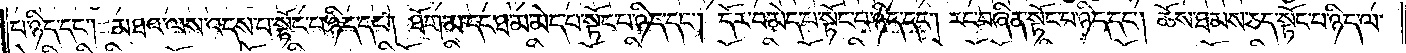པ་ཉིད་དང༌། མཐའ་ལས་འདས་པ་སྟོང་པ་ཉིད་དང༌། ཐོག་མ་དང་ཐ་མ་མེད་པ་སྟོང་པ་ཉིད་དང༌། དོར་བ་མེད་པ་སྟོང་པ་ཉིད་དང༌། རང་བཞིན་སྟོང་པ་ཉིད་དང༌། ཆོས་ཐམས་ཅད་སྟོང་པ་ཉིད་ལ་
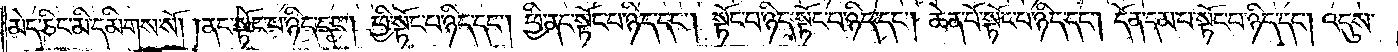མེད་ཅིང་མི་དམིགས་སོ། །ནང་སྟོང་པ་ཉིད་དང༌། ཕྱི་སྟོང་པ་ཉིད་དང༌། ཕྱི་ནང་སྟོང་པ་ཉིད་དང༌། སྟོང་པ་ཉིད་སྟོང་པ་ཉིད་དང༌། ཆེན་པོ་སྟོང་པ་ཉིད་དང༌། དོན་དམ་པ་སྟོང་པ་ཉིད་དང༌། འདུས་
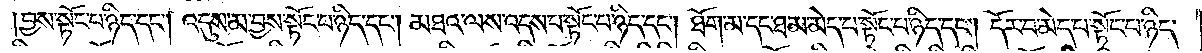བྱས་སྟོང་པ་ཉིད་དང༌། འདུས་མ་བྱས་སྟོང་པ་ཉིད་དང༌། མཐའ་ལས་འདས་པ་སྟོང་པ་ཉིད་དང༌། ཐོག་མ་དང་ཐ་མ་མེད་པ་སྟོང་པ་ཉིད་དང༌། དོར་བ་མེད་པ་སྟོང་པ་ཉིད་
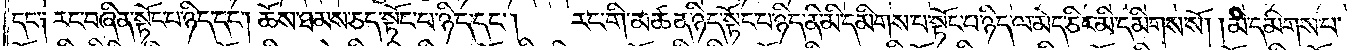དང༌། རང་བཞིན་སྟོང་པ་ཉིད་དང༌། ཆོས་ཐམས་ཅད་སྟོང་པ་ཉིད་དང༌། རང་གི་མཚན་ཉིད་སྟོང་པ་ཉིད་ནི་མི་དམིགས་པ་སྟོང་པ་ཉིད་ལ་མེད་ཅིང་མི་དམིགས་སོ། །མི་དམིགས་པ་
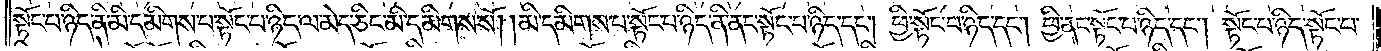སྟོང་པ་ཉིད་ནི་མི་དམིགས་པ་སྟོང་པ་ཉིད་ལ་མེད་ཅིང་མི་དམིགས་སོ། །མི་དམིགས་པ་སྟོང་པ་ཉིད་ནི་ནང་སྟོང་པ་ཉིད་དང༌། ཕྱི་སྟོང་པ་ཉིད་དང༌། ཕྱི་ནང་སྟོང་པ་ཉིད་དང༌། སྟོང་པ་ཉིད་སྟོང་པ་
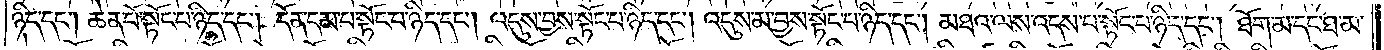ཉིད་དང༌། ཆེན་པོ་སྟོང་པ་ཉིད་དང༌། དོན་དམ་པ་སྟོང་པ་ཉིད་དང༌། འདུས་བྱས་སྟོང་པ་ཉིད་དང༌། འདུས་མ་བྱས་སྟོང་པ་ཉིད་དང༌། མཐའ་ལས་འདས་པ་སྟོང་པ་ཉིད་དང༌། ཐོག་མ་དང་ཐ་མ་
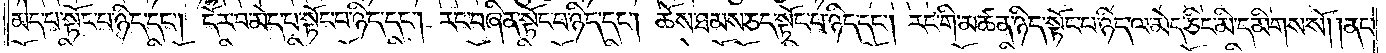མེད་པ་སྟོང་པ་ཉིད་དང༌། དོར་བ་མེད་པ་སྟོང་པ་ཉིད་དང༌། རང་བཞིན་སྟོང་པ་ཉིད་དང༌། ཆོས་ཐམས་ཅད་སྟོང་པ་ཉིད་དང༌། རང་གི་མཚན་ཉིད་སྟོང་པ་ཉིད་ལ་མེད་ཅིང་མི་དམིགས་སོ། །ནང་
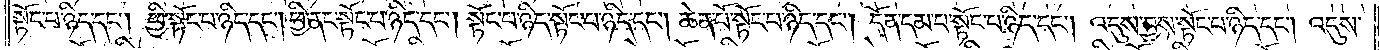སྟོང་པ་ཉིད་དང༌། ཕྱི་སྟོང་པ་ཉིད་དང༌། ཕྱི་ནང་སྟོང་པ་ཉིད་དང༌། སྟོང་པ་ཉིད་སྟོང་པ་ཉིད་དང༌། ཆེན་པོ་སྟོང་པ་ཉིད་དང༌། དོན་དམ་པ་སྟོང་པ་ཉིད་དང༌། འདུས་བྱས་སྟོང་པ་ཉིད་དང༌། འདུས་
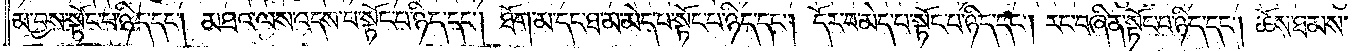མ་བྱས་སྟོང་པ་ཉིད་དང༌། མཐའ་ལས་འདས་པ་སྟོང་པ་ཉིད་དང༌། ཐོག་མ་དང་ཐ་མ་མེད་པ་སྟོང་པ་ཉིད་དང༌། དོར་བ་མེད་པ་སྟོང་པ་ཉིད་དང༌། རང་བཞིན་སྟོང་པ་ཉིད་དང༌། ཆོས་ཐམས་
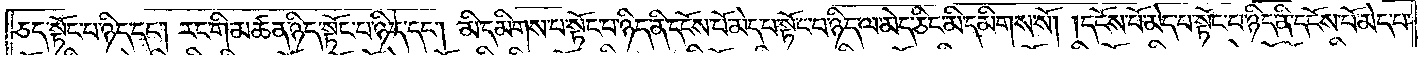ཅད་སྟོང་པ་ཉིད་དང༌། རང་གི་མཚན་ཉིད་སྟོང་པ་ཉིད་དང༌། མི་དམིགས་པ་སྟོང་པ་ཉིད་ནི་དངོས་པོ་མེད་པ་སྟོང་པ་ཉིད་ལ་མེད་ཅིང་མི་དམིགས་སོ། །དངོས་པོ་མེད་པ་སྟོང་པ་ཉིད་ནི་དངོས་པོ་མེད་པ་
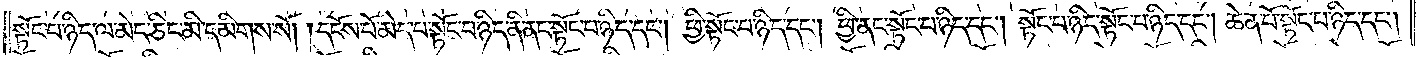སྟོང་པ་ཉིད་ལ་མེད་ཅིང་མི་དམིགས་སོ། །དངོས་པོ་མེད་པ་སྟོང་པ་ཉིད་ནི་ནང་སྟོང་པ་ཉིད་དང༌། ཕྱི་སྟོང་པ་ཉིད་དང༌། ཕྱི་ནང་སྟོང་པ་ཉིད་དང༌། སྟོང་པ་ཉིད་སྟོང་པ་ཉིད་དང༌། ཆེན་པོ་སྟོང་པ་ཉིད་དང༌།
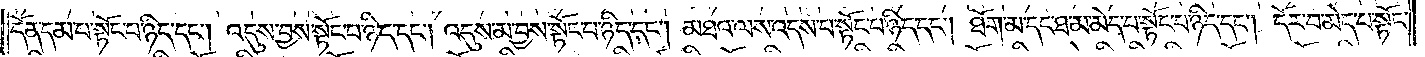དོན་དམ་པ་སྟོང་པ་ཉིད་དང༌། འདུས་བྱས་སྟོང་པ་ཉིད་དང༌། འདུས་མ་བྱས་སྟོང་པ་ཉིད་དང༌། མཐའ་ལས་འདས་པ་སྟོང་པ་ཉིད་དང༌། ཐོག་མ་དང་ཐ་མ་མེད་པ་སྟོང་པ་ཉིད་དང༌། དོར་བ་མེད་པ་སྟོང་
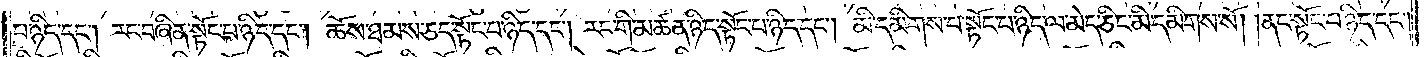པ་ཉིད་དང༌། རང་བཞིན་སྟོང་པ་ཉིད་དང༌། ཆོས་ཐམས་ཅད་སྟོང་པ་ཉིད་དང༌། རང་གི་མཚན་ཉིད་སྟོང་པ་ཉིད་དང༌། མི་དམིགས་པ་སྟོང་པ་ཉིད་ལ་མེད་ཅིང་མི་དམིགས་སོ། །ནང་སྟོང་པ་ཉིད་དང༌།
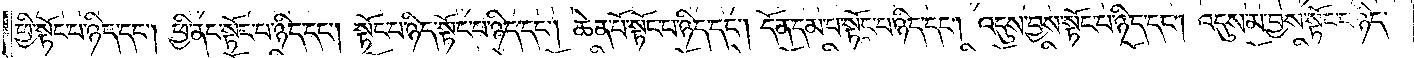ཕྱི་སྟོང་པ་ཉིད་དང༌། ཕྱི་ནང་སྟོང་པ་ཉིད་དང༌། སྟོང་པ་ཉིད་སྟོང་པ་ཉིད་དང༌། ཆེན་པོ་སྟོང་པ་ཉིད་དང༌། དོན་དམ་པ་སྟོང་པ་ཉིད་དང༌། འདུས་བྱས་སྟོང་པ་ཉིད་དང༌། འདུས་མ་བྱས་སྟོང་པ་ཉིད་
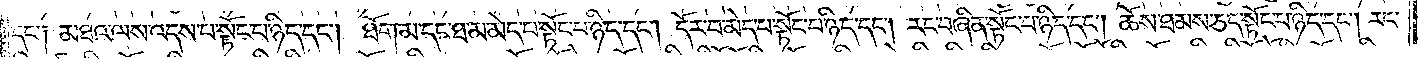དང༌། མཐའ་ལས་འདས་པ་སྟོང་པ་ཉིད་དང༌། ཐོག་མ་དང་ཐ་མ་མེད་པ་སྟོང་པ་ཉིད་དང༌། དོར་བ་མེད་པ་སྟོང་པ་ཉིད་དང༌། རང་བཞིན་སྟོང་པ་ཉིད་དང༌། ཆོས་ཐམས་ཅད་སྟོང་པ་ཉིད་དང༌། རང་
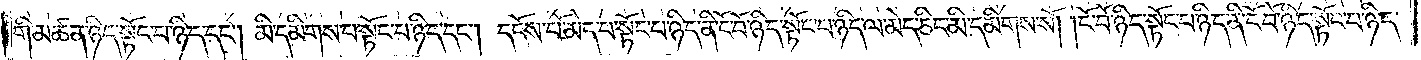གི་མཚན་ཉིད་སྟོང་པ་ཉིད་དང༌། མི་དམིགས་པ་སྟོང་པ་ཉིད་དང༌། དངོས་པོ་མེད་པ་སྟོང་པ་ཉིད་ནི་ངོ་བོ་ཉིད་སྟོང་པ་ཉིད་ལ་མེད་ཅིང་མི་དམིགས་སོ། །ངོ་བོ་ཉིད་སྟོང་པ་ཉིད་ནི་ངོ་བོ་ཉིད་སྟོང་པ་ཉིད་
